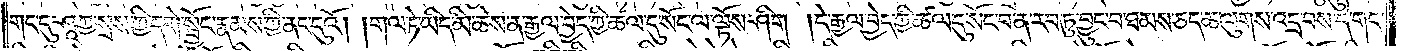གང་དུ་ཤཱཀྱ་སྲས་ཀྱི་དགེ་སྦྱོང་རྣམས་ཀྱི་ནང་དུའོ། །གལ་ཏེ་ཡིད་མི་ཆེས་ན་རྒྱལ་བྱེད་ཀྱི་ཚལ་དུ་སོང་ལ་ལྟོས་ཤིག །དེ་རྒྱལ་བྱེད་ཀྱི་ཚལ་དུ་སོང་བ་ན་རབ་ཏུ་བྱུང་བ་ཐམས་ཅད་ཆ་ལུགས་འདྲ་བས་དེ་གང་
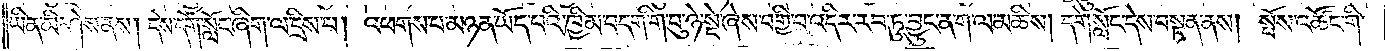ཡིན་མི་ཤེས་ནས། དེས་དགེ་སློང་ཞིག་ལ་དྲིས་པ། འཕགས་པ་མཉན་ཡོད་པའི་ཁྱིམ་བདག་གི་བུ་ཉེ་སྡེ་ཞེས་བགྱི་བ་འདིར་རབ་ཏུ་བྱུང་ན་ག་ལ་མཆིས། དགེ་སློང་དེས་བསྟན་ནས། སྤོས་འཚོང་གི་
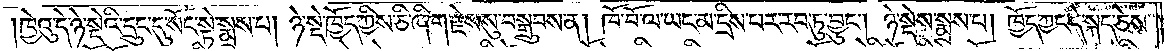ཁྱེའུ་དེ་ཉེ་སྡེའི་དྲུང་དུ་སོང་སྟེ་སྨྲས་པ། ཉེ་སྡེ་ཁྱོད་ཀྱིས་ཅི་ཞིག་རྗེས་སུ་བསྒྲུབས་ན། ཁོ་བོ་ལ་ཡང་མ་དྲིས་པར་རབ་ཏུ་བྱུང༌། ཉེ་སྡེས་སྨྲས་པ། ཁྱོད་ཀྱང་དེ་སྐད་ཅེས་
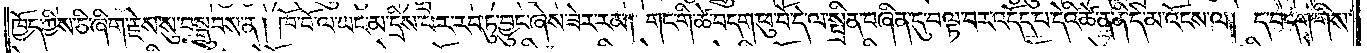ཁྱོད་ཀྱིས་ཅི་ཞིག་རྗེས་སུ་བསྒྲུབས་ན། ཁོ་བོ་ལ་ཡང་མ་དྲིས་པར་རབ་ཏུ་བྱུང་ཞེས་ཟེར་རམ། གང་གི་ཚེ་བདག་ཕུ་བོ་དེ་ལ་སྤྲིན་བཞིན་དུ་བལྟ་བར་འདོད་པ་དེའི་ཚེ་ན་ནི་དེ་མ་འོངས་ལ། ད་བདག་གིས་
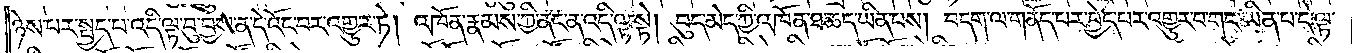ཉེས་པར་སྤྱད་པ་འདི་ལྟ་བུ་བྱས་ན་དེ་འོང་བར་འགྱུར་ཏེ། འཁོན་རྣམས་ཀྱི་ནང་ན་འདི་ལྟ་སྟེ། བུད་མེད་ཀྱི་འཁོན་ཐ་ཆད་ཡིན་པས། བདག་ལ་གནོད་པར་བྱེད་པར་འགྱུར་བ་གང་ཡིན་པ་དེ་ལྟ་
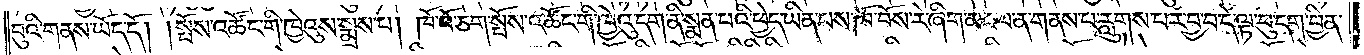བུའི་གནས་ཡོད་དོ། །སྤོས་འཚོང་གི་ཁྱེའུས་སྨྲས་པ། ཁོ་བོ་ཅག་སྤོས་འཚོང་གི་ཁྱེའུ་དག་ནི་སྨན་པའི་ཕྱེད་ཡིན་པས་ཁོ་བོས་རེ་ཞིག་མངལ་ན་གནས་པ་རླུགས་པར་བྱ་བ་དེ་ལྟ་བུ་དག་བྱིན་
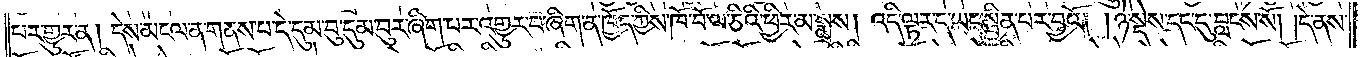པར་གྱུར་ན། དེས་མངལ་ན་གནས་པ་དེ་དུམ་བུ་དུམ་བུར་ཞིག་པར་འགྱུར་བ་ཞིག་ན་ཁྱོད་ཀྱིས་ཁོ་བོ་ལ་ཅིའི་ཕྱིར་མ་སྨྲས། འདི་ལྟར་ད་ཡང་སྦྱིན་པར་བྱའོ། །ཉེ་སྡེས་དང་དུ་བླངས་སོ། །དེ་ནས་
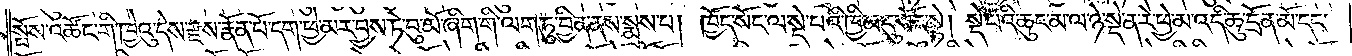སྤོས་འཚོང་གི་ཁྱེའུ་དེས་རྫས་རྣོན་པོ་དག་ཕྱེ་མར་བྱས་ཏེ་བུ་མོ་ཞིག་གི་ལག་ཏུ་བྱིན་ནས་སྨྲས་པ། ཁྱོད་སོང་ལ་སྡེ་པའི་ཁྱིམ་དུ་སོང་སྟེ། སྡེ་པའི་ཆུང་མ་ལ་ཉེ་སྡེ་ན་རེ་ཕྱེ་མ་འདི་ཆུ་དྲོན་མོ་དང་
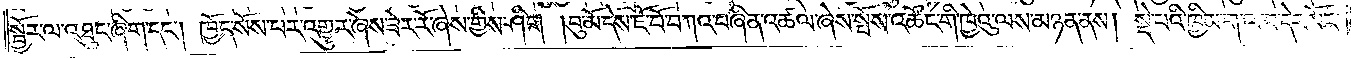སྦྱོར་ལ་འཐུང་ཞིག་དང༌། ཁྱོད་སོས་པར་འགྱུར་ཞེས་ཟེར་རོ་ཞེས་གྱིས་ཤིག །བུ་མོ་དེས་ཇོ་བོ་བཀའ་བཞིན་འཚལ་ཞེས་སྤོས་འཚོང་གི་ཁྱེའུ་ལས་མཉན་ནས། སྡེ་པའི་ཁྱིམ་ག་ལ་བ་དེར་སོང་
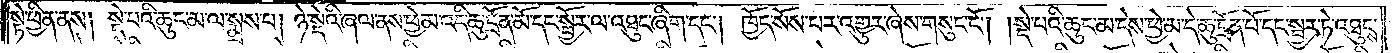སྟེ་ཕྱིན་ནས། སྡེ་པའི་ཆུང་མ་ལ་སྨྲས་པ། ཉེ་སྡེའི་ཞལ་ནས་ཕྱེ་མ་འདི་ཆུང་དྲོན་མོ་དང་སྦྱོར་ལ་འཐུང་ཞིག་དང༌། ཁྱོད་སོས་པར་འགྱུར་ཞེས་གསུང་ངོ༌། །སྡེ་པའི་ཆུང་མ་དེས་ཕྱེ་མ་དེ་ཆུ་དྲོན་པོ་དང་སྦྱར་ཏེ་འཐུངས་
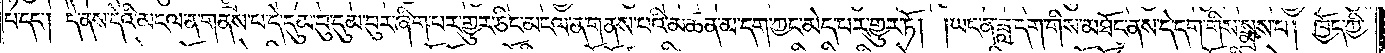པ་དང༌། དེ་ནས་དེའི་མངལ་ན་གནས་པ་དེ་དུམ་བུ་དུམ་བུར་ཞིག་པར་གྱུར་ཅིང་མངལ་ན་གནས་པའི་མཚན་མ་དག་ཀྱང་མེད་པར་གྱུར་ཏོ། །ཡང་ན་ཟླ་དག་གིས་མཐོང་ནས་དེ་དག་གིས་སྨྲས་པ། ཁྱོད་ཀྱི་
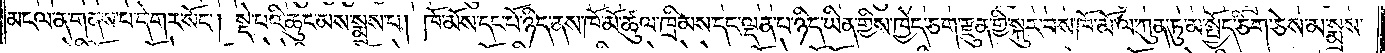མངལ་ན་གནས་པ་དེ་གར་སོང༌། སྡེ་པའི་ཆུང་མས་སྨྲས་པ། ཁོ་མོས་དང་པོ་ཉིད་ནས་ཁོ་མོ་ཚུལ་ཁྲིམས་དང་ལྡན་པ་ཉིད་ཡིན་གྱིས་ཁྱེད་ཅག་རྫུན་གྱི་སྐུར་བས་ཁོ་མོ་ལ་ཀུན་ཏུ་མ་སྤྱོད་ཅིག་ཅེས་མ་སྨྲས་
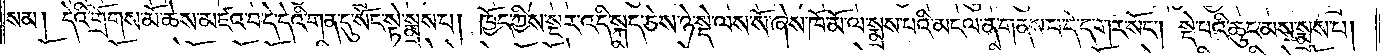སམ། དེའི་གྲོགས་མོ་ཆེས་མཛའ་བ་དེ་དེའི་གན་དུ་སོང་སྟེ་སྨྲས་པ། ཁྱོད་ཀྱིས་སྔར་འདི་སྐད་ཅེས་ཉེ་སྡེ་ལས་སོ་ཞེས་ཁོ་མོ་ལ་སྨྲས་པའི་མངལ་ན་གནས་པ་དེ་ད་གར་སོང༌། སྡེ་པའི་ཆུང་མས་སྨྲས་པ།
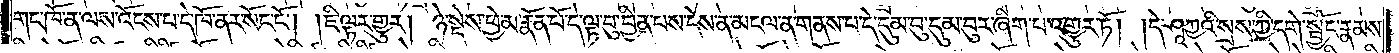གང་ཁོ་ན་ལས་འོངས་པ་དེ་ཁོ་ནར་སོང་ངོ༌། །ཇི་ལྟར་གྱུར། ཉེ་སྡེས་ཕྱེ་མ་རྣོན་པོ་དེ་ལྟ་བུ་བྱིན་པས་དེས་ན་མངལ་ན་གནས་པ་དེ་དུམ་བུ་དུམ་བུར་ཞིག་པ་འགྱུར་ཏོ། །དེ་ཤཱཀྱའི་སྲས་ཀྱི་དགེ་སྦྱོང་རྣམས་
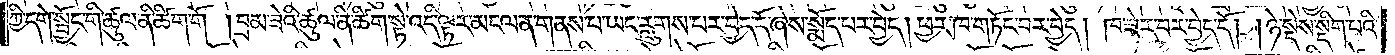ཀྱི་དགེ་སྦྱོང་གི་ཚུལ་ནི་ཚིག་གོ །བྲམ་ཟེའོ་ཚུལ་ནི་ཚིག་སྟེ་འདི་ལྟར་མངལ་ན་གནས་པ་ཡང་རླུགས་པར་བྱེད་དོ་ཞེས་སྨོད་པར་བྱེད། ཕྱར་ཁ་གཏོང་བར་བྱེད། ཁ་ཟེར་བར་བྱེད་དོ། །ཉེ་སྡེས་སྡིག་པའི་
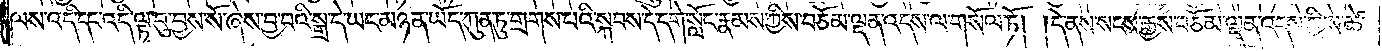ལས་འདི་དང་འདི་ལྟ་བུ་བྱས་སོ་ཞེས་བྱ་བའི་སྒྲ་དེ་ཡང་མཉན་ཡོད་ཀུན་ཏུ་གྲགས་པའི་སྐབས་དེ་དགེ་སློང་རྣམས་ཀྱིས་བཅོམ་ལྡན་འདས་ལ་གསོལ་ཏོ། །དེ་ནས་སངས་རྒྱས་བཅོམ་ལྡན་འདས་ཀྱིས་ཚེ་
